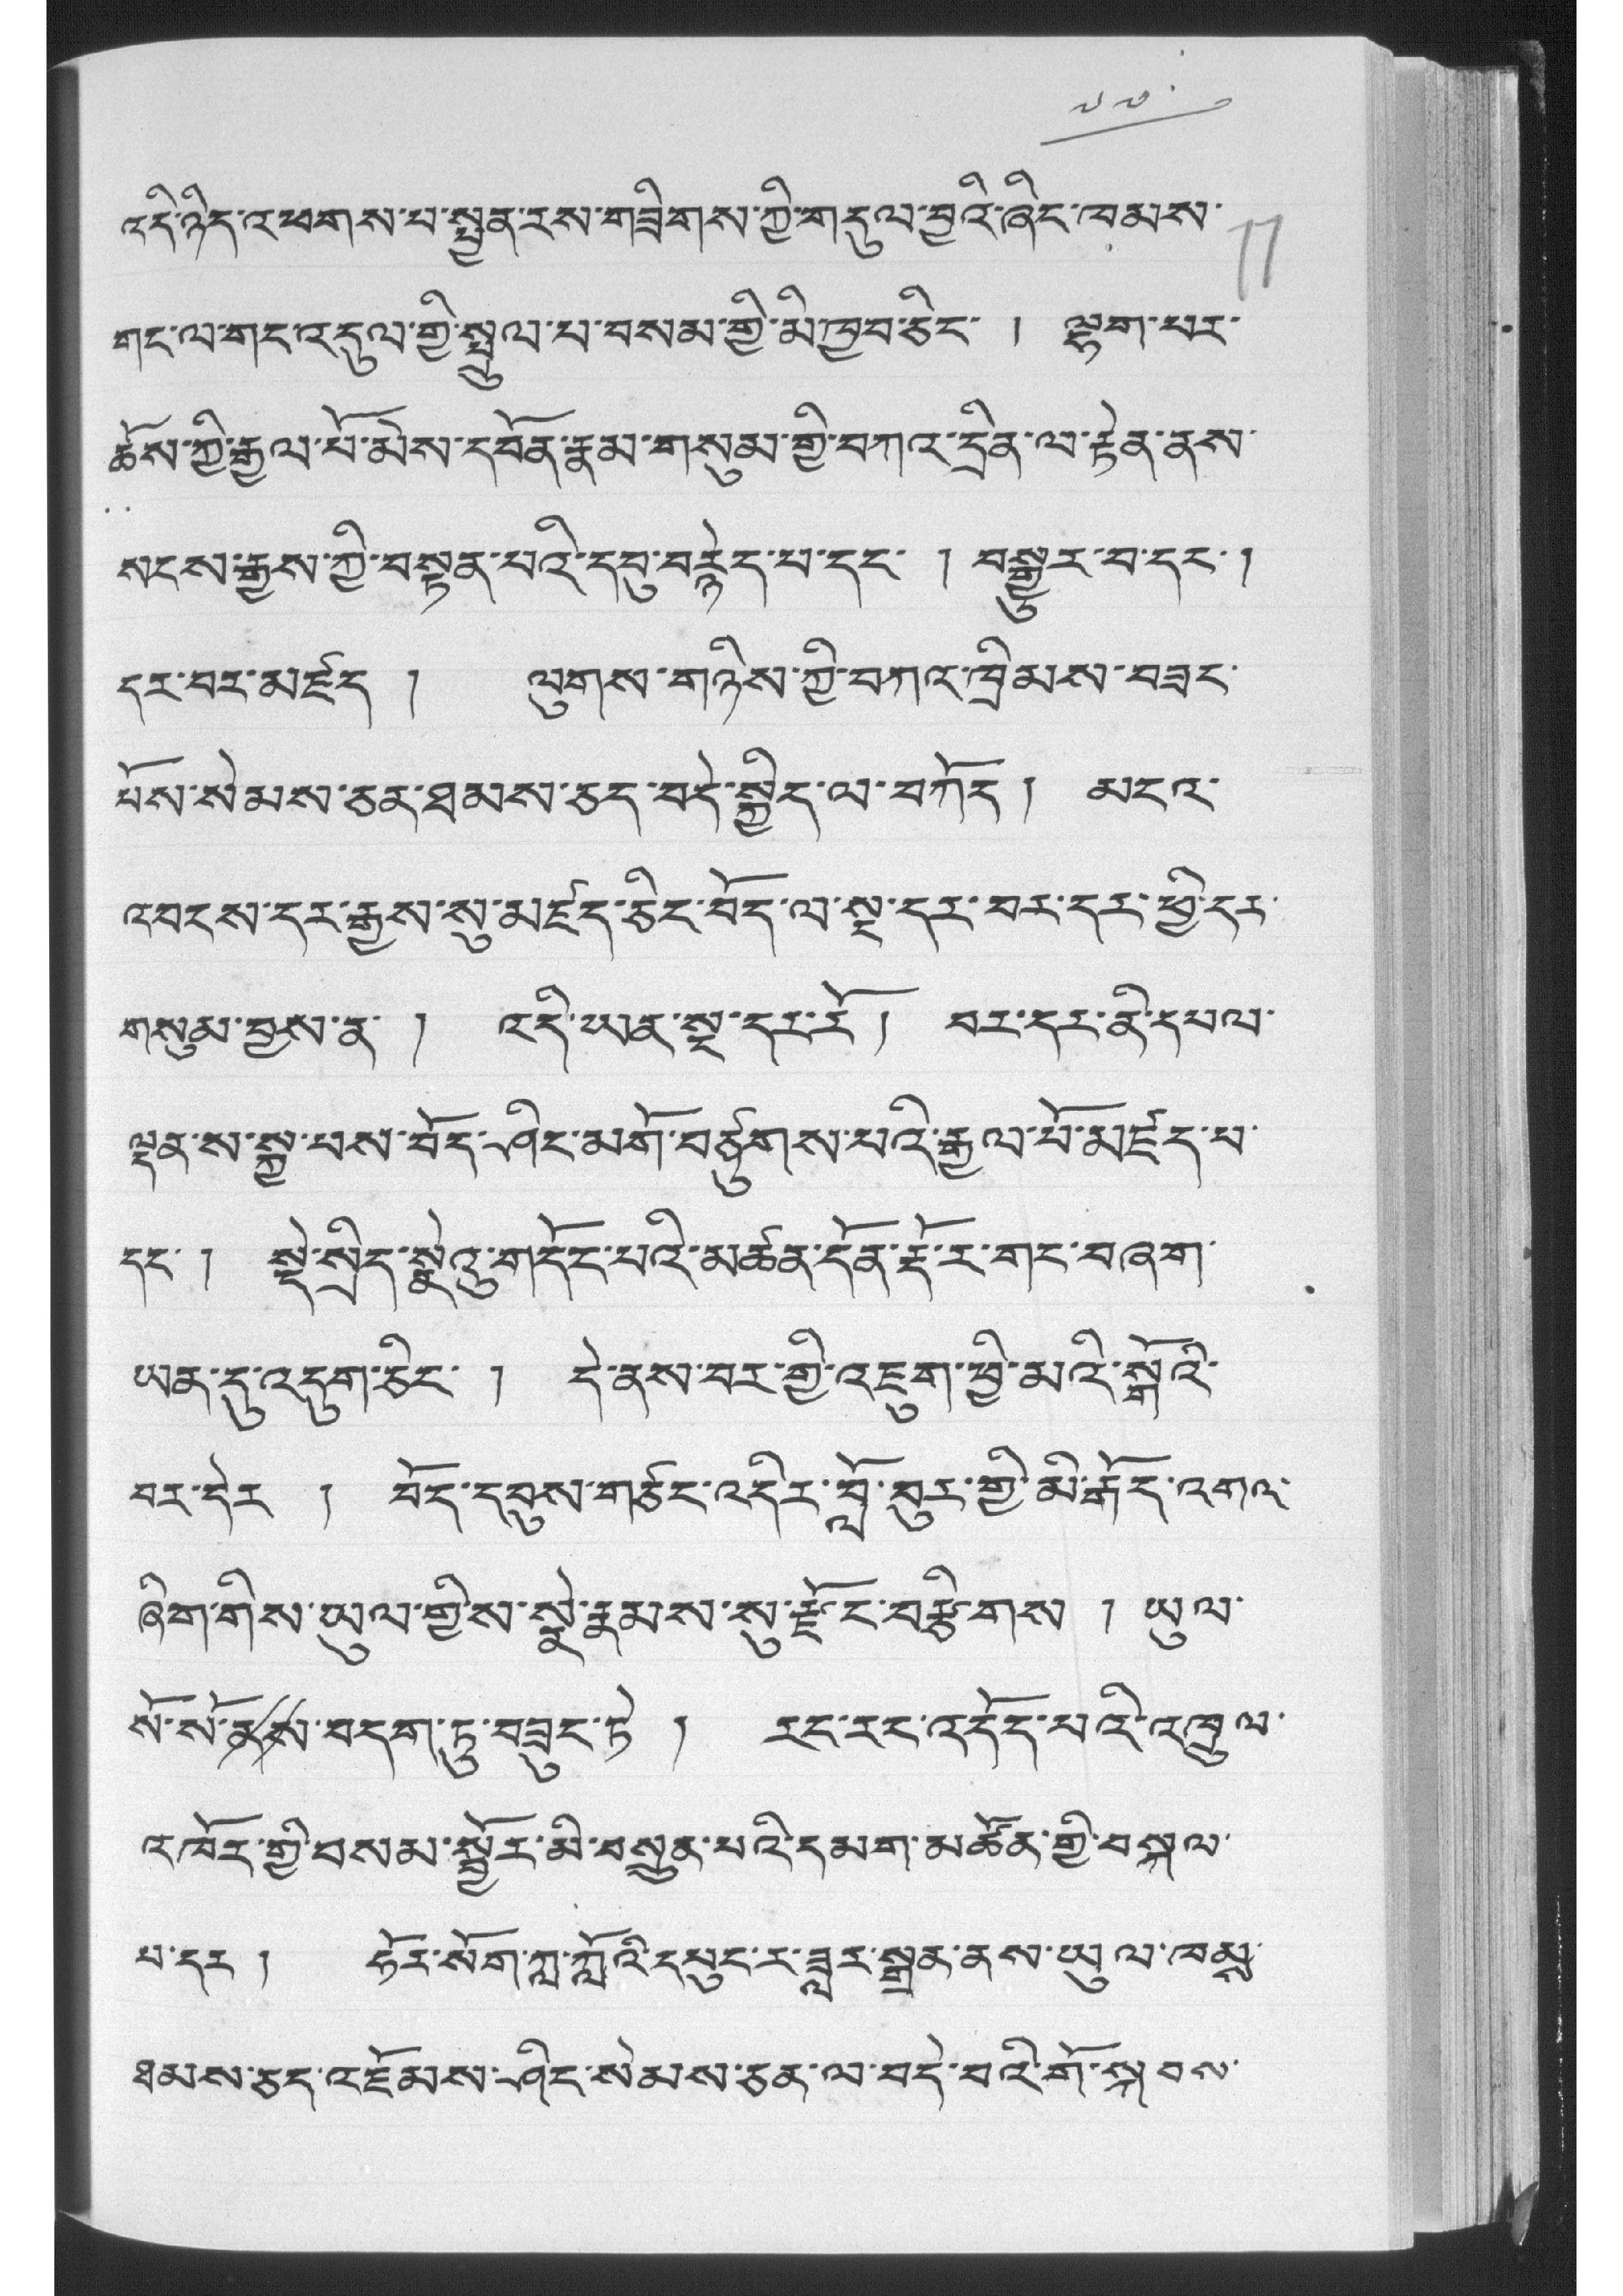༧༧
འདི་ཉིད་འཕགས་པ་སྦྱན་རས་གཟིགས་ཀྱི་གདུལ་བྱའི་ཞིང་ཁམས་
གང་ལ་གང་འདུལ་གྱི་སྤྲུལ་བ་བསམ་གྱི་མི་ཁྱབ་ཅིང་ ། ལྷག་པར་
ཆོས་ཀྱི་རྒྱལ་པོ་མེས་དཔོན་རྣམ་གསུམ་གྱི་བཀའ་དྲིན་ལ་རྟེན་ནས་
སངས་རྒྱུས་ཀྱི་བསྟན་པའི་དབུ་བརྙེད་པ་དང་ ། བསྒྱུར་བ་དང་།
དར་བར་མཛད ། ལུགས་གཉིས་ཀྱི་བཀའ་ཁྲིམས་བཟང་
པོས་སེམས་ཅན་ཐམས་ཅད་བདེ་སྐྱིད་ལ་བཀོད། མངའ་
འབངས་དར་རྒྱས་སུ་མཛད་ཅིང་བོད་ལ་སྔ་དར་བར་དར་ཕྱི་དར་
གསུམ་བྱས་ན་ ། འདི་ཡན་སྔ་དར་རོ། བར་དར་ནི་དཔལ་
ལྡན་ས་སྐྱ་པས་བོད་ཤིང་མགོ་བཙུགས་པའི་རྒྱལ་པོ་མཛད་པ་
དང་། སྡེ་སྲིད་སྣེའུ་གདོང་པའི་མཚན་དོན་རྡོ་ར་གང་བཞག་
ཡན་དུ་འདུག་ཅིང་ ། དེ་ནས་བར་གྱི་འཇུག་ཕྱི་མའི་སྒོའི་
བར་དེར ། བོད་དབུས་གཙང་འདིར་བློ་བུར་གྱི་མི་རྒོད་འགའ་
ཞིག་གིས་ཡུལ་གྱིས་སྣེ་རྣམས་སུ་རྫོང་བརྩིགས ། ཡུལ་
སོ་སོ་ནས་བདག་ཏུ་བཟུང་ཏེ ། རང་རང་འདོད་པའི་འཁྲུལ་
འཁོར་གྱི་བསམ་སྦྱོར་མི་བསྲུན་པའི་དམག་མཚོན་གྱི་བསྐུལ་
པ་དར ། ཧོར་སོག་ཀླ་ཀློའི་དཔུང་ར་ཟླར་སྒྲན་ནས་ཡུལ་ལམས་
ཐམས་ཅད་འཇོམས་ཤིང་སེམས་ཅན་ལ་བདེ་བའི་གོ་སྐབས་
